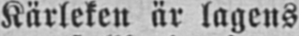Kärleken är lagens
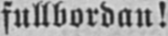fullbordan!
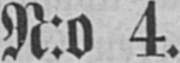No 4.
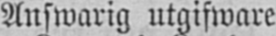Answarig utgifware
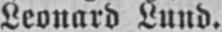Leonard Lund.
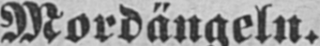Mordängeln.
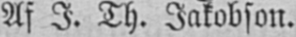Af I. Th. Jakobson.
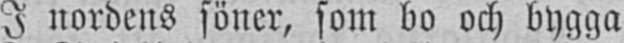I nordens söner, som bo och bygga
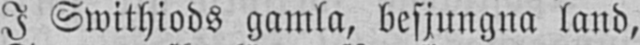I Swithiods gamla, besjungna land,
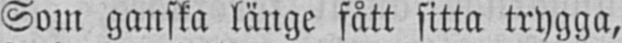Som ganska länge fått sitta trygga,
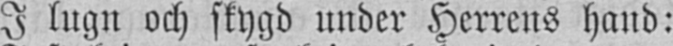I lugn och skygd under Herrens hand:
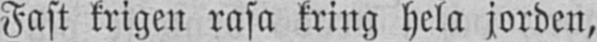Fast krigen rasa kring hela jorden,
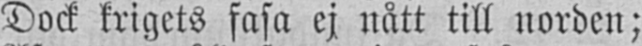Dock krigets fasa ej nått till norden;
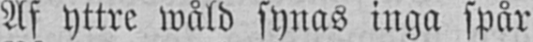Af yttre wåld synas inga spår
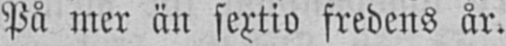På mer än sextio fredens år.
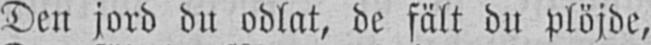Den jord du odlat, de fält du plöjde,
